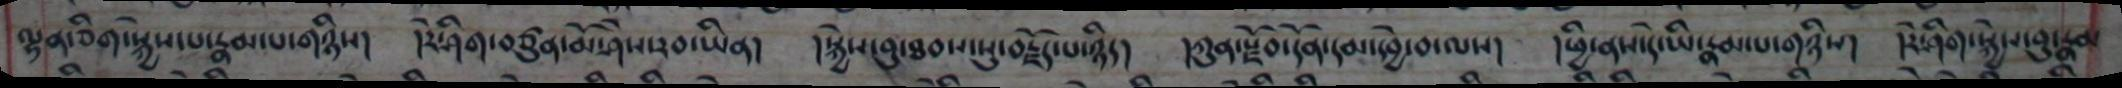ལྷན་ཅིག་སྐྱེས་པ་རྣམ་པ་གཉིས། །རེ་ཤིག་བཙུན་མོ་ཤེས་རབ་ཡིན། །སྐྱེས་བུ་ཐབས་སུ་བརྗོད་པ་ཉིད། །ཀུན་སྫོབ་དོམ་དམ་དབྱེ་བ་ལས། །ཕྱི་ནས་དེ་ཡི་རྣམ་པ་གཉིས། །རེ་ཤིག་སྐྱེས་བུ་རྣམ
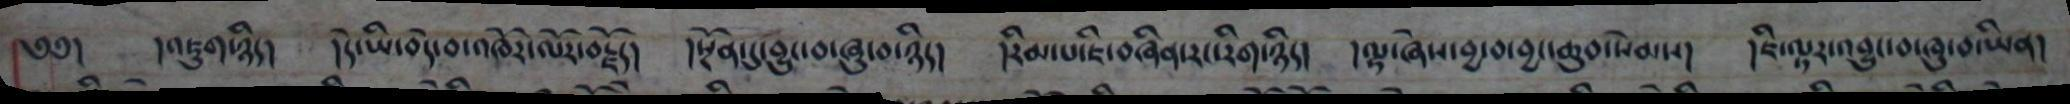༄༅། །འཇུག་ཉིད། །དེ་ཡི་བདེ་བ་འཁོར་ལོར་བརྗོད། །སྔོན་དུ་བྱུང་བ་ཞུ་བ་ཉིད། །རིམ་པ་ཇི་བཞིན་རང་རིག་ཉིད། །ལྟ་ཞེས་བྱ་བ་བྱང་ཆུབ་སེམས། །ཇི་ལྟར་འབྱུང་བ་ཞུ་བ་ཡིན།
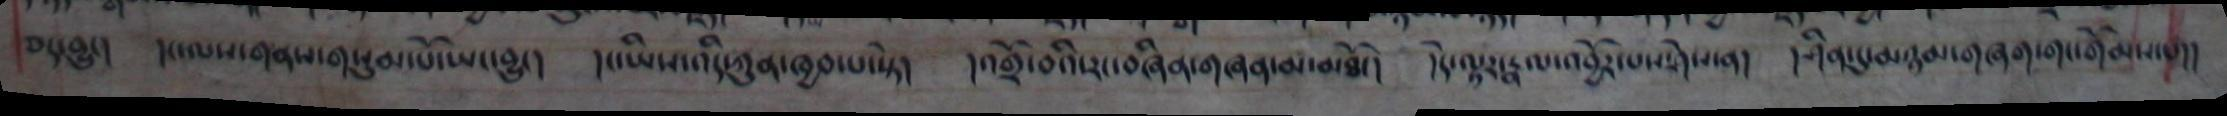ཅད་བྱུང། །ང་ལས་གནས་གསུམ་པོ་ཡང་བྱུང། །ང་ཡིས་འདི་ཀུན་ཁྱབ་པ་སྟེ། །འགྲོ་བའི་རང་བཞིན་གཞན་མ་མཐོང། །དེ་ལྟར་རྣལ་འབྱོར་པས་ཤེས་ན། །ཤིན་དུ་མཉམ་གཞག་གང་གོམས་པ།།
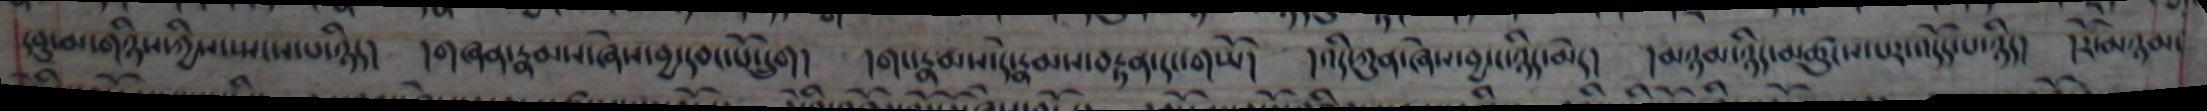དབུ་མ་གཉིད་ཀྱིས་སྤངས་པ་ཉིད། །གཞན་རྣམས་ཞེས་བྱ་དབང་པོ་དྲུག། །གང་རྣམས་དེ་རྣམས་བརྟན་དང་གཡོ། །འདི་ཀུན་ཞེས་བྱ་ང་ཉིད་མེད། །མཉམ་ཉིད་མཚུངས་པར་འདོད་པ་ཉིད། །རོ་མཉམ་
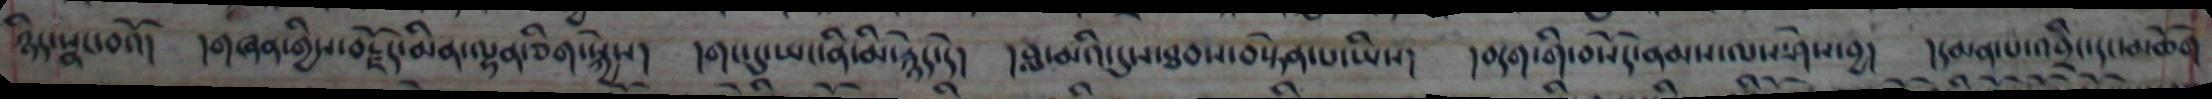ཉིད་སྣང་བའོ། །གཞན་གྱིས་བརྗོད་མིན་ལྷན་ཅིག་སྐྱེས། །གང་དུ་ཡང་ནི་མི་རྙེད་དེ། །བླ་མའི་དུས་ཐབས་བསྟེན་པ་ཡིས། །བདག་གི་བསོད་ནམས་ལས་ཤེས་བྱ། །དམན་པ་འབྲིང་དང་མཆོག
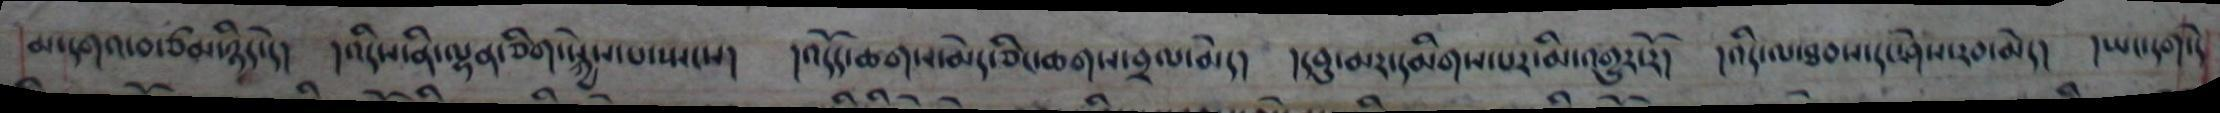མ་དགའ་བ་ཙམ་ཉིད་དེ། །འདིས་ནི་ལྷན་ཅིག་སྐྱེས་པ་སྤངས། །འདོད་ཆགས་མེད་ཅིང་ཆགས་བྲལ་མེད། །དབུ་མར་དམིགས་པར་མི་འགྱུར་རོ། །འདི་ལ་ཐབས་དང་ཤེས་རབ་མེད། །ཡང་དག་དེ
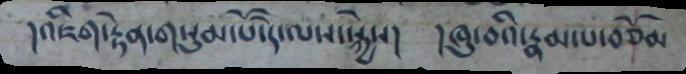།འཇིག་རྟེན་གསུམ་པོ་དེ་ལས་སྐྱེས། །ཞུ་བའི་རྣམ་པ་བཅོམ
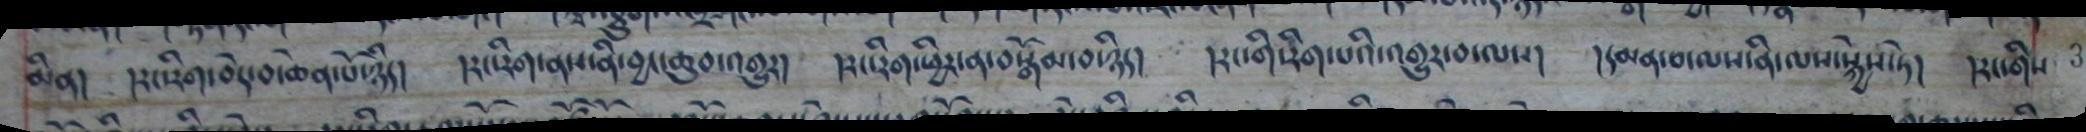མིན། །རང་རིག་བདེ་བ་ཆེན་པོ་ཉིད། །རང་རིག་ནས་ནི་བྱང་ཆུབ་འགྱུར། །རང་རིག་ཕྱིར་ན་བསྒོམ་བ་ཉིད། །རང་གི་རིག་པའི་འགྱུར་བ་ལས། །དམན་བ་ལས་ནི་ལས་སྐྱེས་ཏེ།  །རང་གིས་
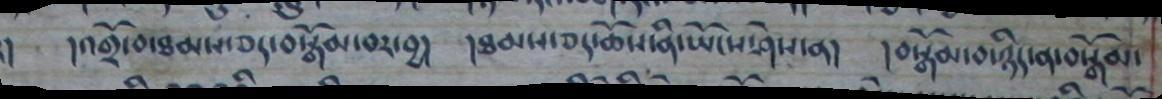། །འགྲོ་བ་ཐམས་ཅད་བསྒོམ་བར་བྱ། །ཐམས་ཅད་ཆོས་ནི་ཡོངས་ཤེས་ན། །བསྒོམ་བ་ཉིད་ན་བསྒོམ་
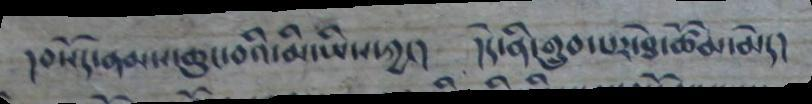།བསོད་ནམས་ཆུང་བའི་མི་ཡིས་ཀྱང། །དེ་ནི་གྲུབ་པར་ཐེ་ཚོམ་མེད།
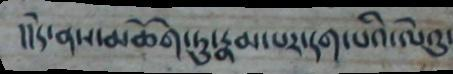།།དེ་ནས་མཆོག་ཏུ་རྣམ་པར་དག་པའི་ལེའུ་
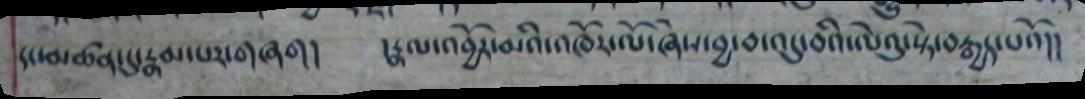དང་མཚན་དུ་རྣམ་པར་གཞག། །རྣལ་འབྱོར་མའི་འཁོར་ལོ་ཞེས་བྱ་བ་འདུ་བའི་ལེའུ་སྟེ་བརྒྱད་པའོ།།
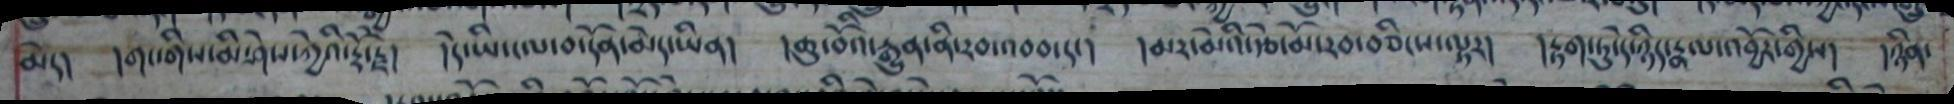མེད། །གང་གིས་མི་ཤེས་ཀྱེའི་རྡོ་རྗེ། །དེ་ཡི་ངལ་བ་དོན་མེད་ཡིན། །ཆུ་བོའི་རྒྱུན་ནི་རབ་འབབ་དང། །མར་མེའི་རྩེ་མོ་རབ་བཅིངས་ལྟར། །རྟག་ཏུ་དེ་ཉིད་རྣལ་འབྱོར་གྱིས། །ཉིན་
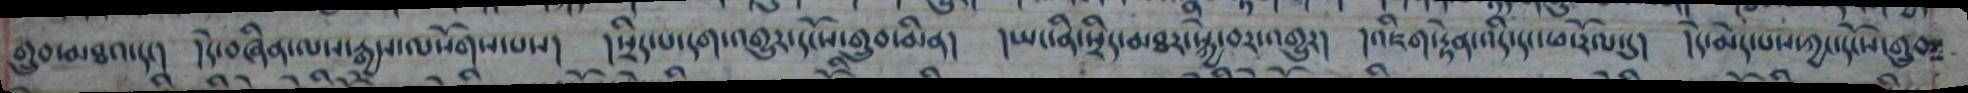གྲུབ་མཐའ་དང། །དེ་བཞིན་ལས་རྒྱས་ལསོགས་པས། །སྲིད་པ་དག་འགྱུར་དངོས་གྲུབ་མིན། །ཡང་ནི་སྲིད་མཐར་སྐྱེ་བར་འགྱུར། །འཇིག་རྟེན་འདི་དང་ཕ་རོལ་དུ། །དེ་མེད་པས་ཀྱང་དངོས་གྲུབ་
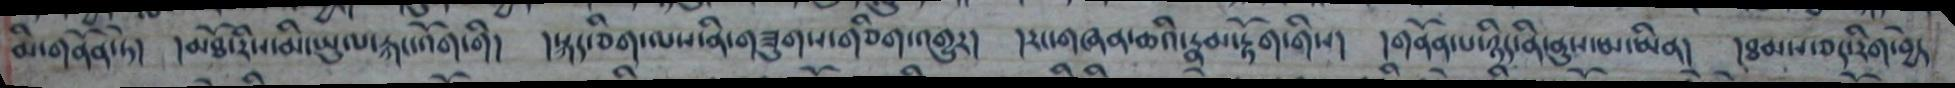མི་གནོན་ཏེ། །མཐོ་རིས་མི་ཡུལ་རྐང་འོག་གི། །སྐད་ཅིག་ལས་ནི་གཟུགས་གཅིག་འགྱུར། །རང་གཞན་ཆའི་རྣམ་རྟོག་གིས། འགནོན་པ་ཉིད་ནི་ནུས་མ་ཡིན། །ཐམས་ཅད་རིག་བྱེད
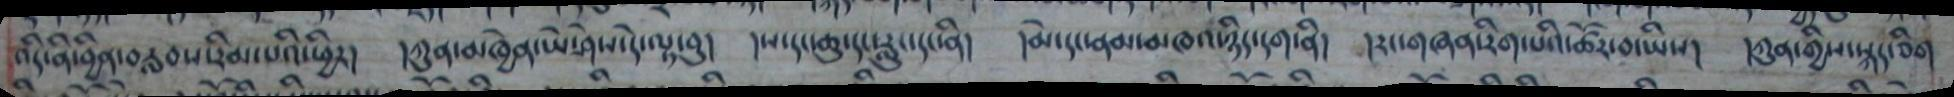འདི་ནི་བྱིན་བརླབས་རིམ་པའི་ཕྱིར། །ཀུན་མཁྱེན་ཡེ་ཤེས་དེ་ལྟ་བུ། །ས་དང་ཆུ་དང་རླུང་དང་ནི། །མེ་དང་ནམ་མཁའ་ཉིད་དག་ནི། །རང་གཞན་རིག་པའི་ཚོར་བ་ཡིས། །ཀུན་གྱིས་སྐད་ཅིག
